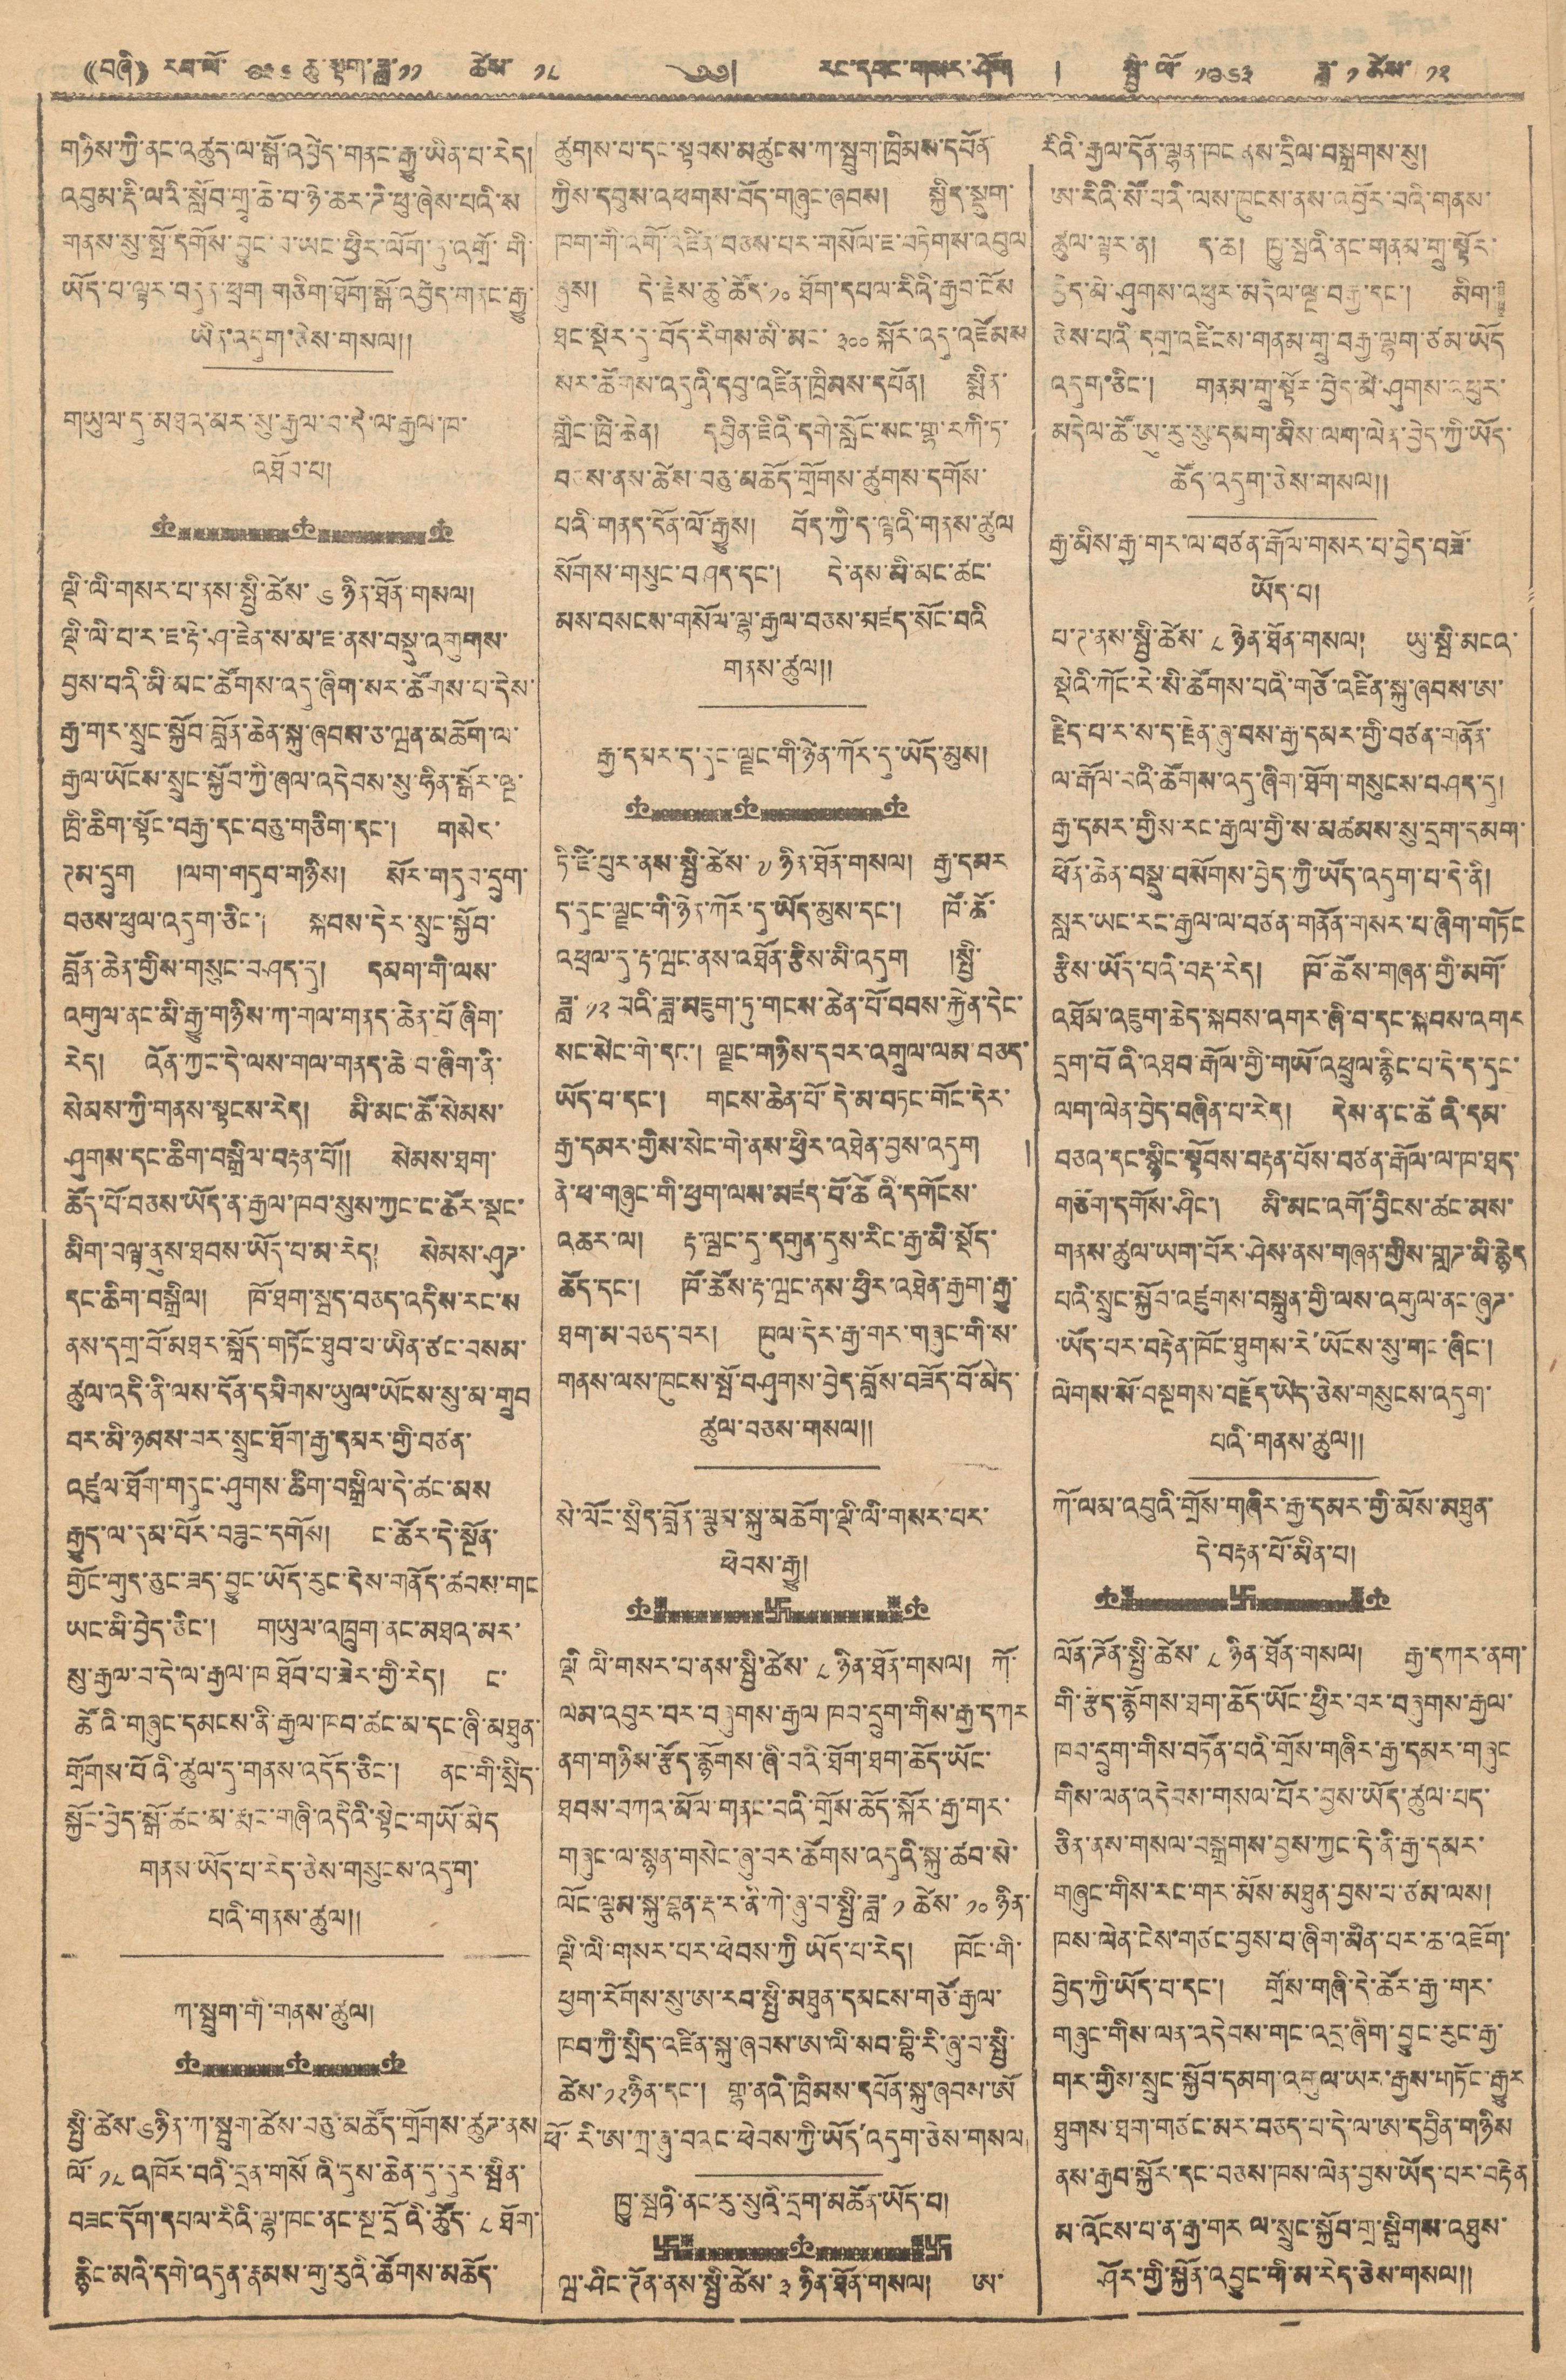(( བཞི ) རབ་ལོ་ ༩༣༦ ཆུ་སྟག་ཟླ་༡༡ ཚེས་ ༡༨ ༄༅། རང་དབང་གསར་ཤོག ། སྤྱི་ལོ་ ༡༩༦༣ ཟླ་ ༡ ཚེས་ ༡༢
གཉིས་ཀྱི་ནང་འཚུད་ལ་སྒོ་འབྱེད་གནང་རྒྱུ་ཡིན་པ་རེད།
འབུམ་རྡི་ལའི་སློབ་གྲྭ་ཆེ་བ་ཉེ་ཆར་ཌི་ཕུ་ཞེས་པའི་ས
གནས་སུ་སྤོ་དགོས་བྱུང་བ་ཡང་ཕྱིར་ལོག་ཏུ་འགྲོ་གི་
ཡོད་པ་ལྟར་བདུད་ཕྲག་གཅིག་ཐོག་སྒོ་འབྱེད་གནང་རྒྱུ་
ཡིན་འདུག་ཅེས་གསལ།།
གཡུལ་དུ་མཐའ་མར་སུ་རྒྱལ་བ་དེ་ལ་རྒྱལ་ཁ་
འཐོབ་པ།
ལྡི་ལི་གསར་པ་ནས་སྤྱི་ཚེས་ ༦ ཉིན་ཐོན་གསལ།
ལྡི་ལི་པ་ར་ཇ་རྟེ་ཤ་ཇེན་ས་མ་ཇ་ནས་བསྡུ་འགུགས་
བྱས་པའི་མི་མང་ཚོགས་འདུ་ཞིག་སར་ཚོགས་པ་དེས་
རྒྱ་གར་སྲུང་སྐྱོབ་བློན་ཆེན་སྐུ་ཞབས་ཅ་ཝན་མཆོག་ལ་
རྒྱལ་ཡོངས་སྲུང་སྐྱོབ་ཀྱི་ཞལ་འདེབས་སུ་ཧིན་སྒོར་ལྔ་
ཁྲི་ཆིག་སྟོང་བརྒྱ་དང་བཅུ་གཅིག་དང་། གསེར་
ཊམ་དྲུག །ལག་གདུབ་གཉིས། སོར་གདུབ་དྲུག་
བཅས་ཕུལ་འདུག་ཅིང་། སྐབས་དེར་སྲུང་སྐྱོབ་
བློན་ཆེན་གྱིས་གསུང་བཤད་དུ། དམག་གི་ལས་
འགུལ་ནང་མི་རྒྱུ་གཉིས་ཀ་གལ་གནད་ཆེན་པོ་ཞིག་
རེད། འོན་ཀྱང་དེ་ལས་གལ་གནད་ཆེ་བ་ཞིག་ནི་
སེམས་ཀྱི་གནས་སྟངས་རེད། མི་མང་ཚོ་སེམས་
ཤུགས་དང་ཆིག་བསྒྲིལ་བརྟན་པོ།། སེམས་ཐག་
ཆོད་པོ་བཅས་ཡོད་ན་རྒྱལ་ཁབ་སུས་ཀྱང་ང་ཚོར་སྡང་
མིག་བལྟ་ནུས་ཐབས་ཡོད་པ་མ་རེད། སེམས་ཤུཊ་
དང་ཆིག་བསྒྲིལ། ཁོ་ཐག་སྦད་བཅད་འདིས་རང་ས
ནས་དགྲ་བོ་མཐར་སློད་གཏོང་ཐུབ་པ་ཡིན་ཙང་བསམ་
ཚུལ་འདི་ནི་ལས་དོན་དམིགས་ཡུལ་ཡོངས་སུ་མ་གྲུབ
བར་མི་ཉམས་བར་སྲུང་ཐོག་རྒྱ་དམར་གྱི་བཙན་
འཛུལ་ཐོག་གདུང་ཤུགས་ཆིག་བསྒྲིལ་དེ་ཚང་མས
རྒྱུད་ལ་དམ་པོར་བཟུང་དགོས། ང་ཚོར་དེ་སྔོན་
གྱོང་གུད་ཅུང་ཟད་བྱུང་ཡོད་རུང་དེས་གནོད་ཚབས་གང
ཡང་མི་བྱེད་ཅིང་། གཡུལ་འཁྲུག་ནང་མཐའ་མར་
སུ་རྒྱལ་བ་དེ་ལ་རྒྱལ་ཁ ཐོབ་པ་ཟེར་གྱི་རེད། ང་
ཚོའི་གཞུང་དམངས་ནི་རྒྱལ་ཁབ་ཚང་མ་དང་ཞི་མཐུན་
གྲོགས་པོའི་ཚུལ་དུ་གནས་འདོད་ཅིང་། ནང་གི་སྲིད་
སྐྱོང་བྱེད་སྒོ་ཚང་མ་རྨང་གཞི་འདིའི་སྟེང་གཡོ་མེད
གནས་ཡོད་པ་རེད་ཅེས་གསུངས་འདུག་
པའི་གནས་ཚུལ།།
ཀ་སྦུག་གི་གནས་ཚུལ།
སྤྱི་ཚེས་༦ཉིན་ཀ་སྦུག་ཚེས་བཅུ་མཚོད་གྲོགས་ཚུཊ་ནས
ལོ་ ༡༨ འཁོར་བའི་དྲན་གསོའི་དུས་ཆེན་དུ་དུར་སྦིན་
བཟང་དོག་དཔལ་རིའི་ལྷ་ཁང་ནང་སྔ་དྲོའི་ཚོད་ ༨ ཐོག་
རྙིང་མའི་དགེ་འདུན་རྣམས་གུ་རུའི་ཚོགས་མཆོད་
ཚུགས་པ་དང་སྟབས་མཚུགས་ཀ་སྦུག་ཁྲིམས་དཔོན་
ཀྱིས་དབུས་འཕགས་བོད་གཞུང་ཞབས། སྐྱིད་སྡུག་
ཁག་གི་འགོ་འཛིན་བཅས་པར་གསོལ་ཇ་བཏེགས་འབུལ
ཞུས། དེ་རྗེས་ཆུ་ཚོད་ ༡༠ ཐོག་དཔལ་རིའི་རྒྱལ་ངོས
ཐང་སྡེར་དུ་བོད་རིགས་མི་མང་ ༣༠༠ སྐོར་འདུ་འཛོམས
སར་ཚོགས་འདུའི་དབུ་འཛིན་ཁྲིམས་དཔོན། སྨིན་
གླིང་ཁྲི་ཆེན། དབྱིན་ཇིའི་དགེ་སློང་སང་གྷ་རཀི་ཏ་
བཅས་ནས་ཚེས་བཅུ་མཆོད་གྲོགས་ཚུགས་དགོས་
པའི་གནད་དོན་ལོ་རྒྱུས། བོད་ཀྱི་ད་ལྟའི་གནས་ཚུལ
སོགས་གསུང་བཤད་དང་། དེ་ནས་མི་མང་ཚང་
མས་བསངས་གསོལ་ལྷ་རྒྱལ་བཅས་མཛད་སོང་བའི
གནས་ཚུལ།།
རྒྱ་དམར་ད་དུང་ལྗང་གི་ཉེན་ཀོར་དུ་ཡོད་མུས།
ཏི་ཛི་པུར་ནས་སྤྱི་ཚེས་ ༧ ཉིན་ཐོན་གསལ། རྒྱ་དམར
ད་དུང་ལྗང་གི་ཉེར་ཀོར་དུ་ཡོད་མུས་དང་། ཁོ་ཚོ་
འཕྲལ་དུ་རྟ་ཝང་ནས་འཐོན་རྩིས་མི་འདུག །སྤྱི་
ཟླ་ ༡༢ པའི་ཟླ་མཇུག་ཏུ་གངས་ཆེན་པོ་བབས་རྐྱེན་དེང་
སང་སེང་གེ་དང་། ལྗང་གཉིས་དབར་འགྲུལ་ལམ་བཅད་
ཡོད་པ་དང་། གངས་ཆེན་པོ་དེ་མ་བཏང་གོང་དེར་
རྒྱ་དམར་གྱིས་སེང་གེ་ནས་ཕྱིར་འཐེན་བྱས་འདུག །
ནེ་ཕ་གཞུང་གི་ཕྱག་ལས་མཛད་པོ་ཚོའི་དགོངས་
འཆར་ལ། རྟ་ཝང་དུ་དགུན་དུས་རིང་རྒྱ་མི་སྡོད་
ཚོད་དང་། ཁོ་ཚོས་རྟ་ཝང་ན་ཕྱིར་འཐེན་རྒྱག་རྒྱུ་
ཐག་མ་བཅད་བར། ཁུལ་དེར་རྒྱ་གར་གཞུང་གི་ས་
གནས་ལས་ཁུངས་སྤོ་བཤུགས་བྱེད་བློས་བཟོད་པོ་མེད་
ཚུལ་བཅས་གསལ།།
སེ་ལོང་སྲིད་བློན་ལྕམ་སྐུ་མཆོག་ལྡི་ལི་གསར་པར་
ཕེབས་རྒྱུ།
ལྡི ལི་གསར་པ་ནས་སྤྱི་ཚེས་ ༨ ཉིན་ཐོན་གསལ། ཀོ་
ལམ་འབུར་བར་བཞུགས་རྒྱལ ཁབ་དྲུག་གིས་རྒྱ་དཀར
ནག་གཉིས་རྩོད་རྙོགས་ཞི་བའི་ཐོག་ཐག་ཆོད་ཡོང་
ཐབས་བཀའ་མོལ་གནང་བའི་གྲོས་ཆོད་སྐོར་རྒྱ་གར་
གཞུང་ལ་སྙན་གསེང་ཞུ་བར་ཚོགས་འདུའི་སྐུ་ཚབ་སེ་
ལོང་ལྕམ་སྐུ་བྷན་རྡ་ར་ནི་ཀེ་ཞུ་བ་སྤྱི་ཟླ་ ༡ ཚེས་ ༡༠ ཉིན་
ལྡི་ལི་གསར་པར་ཕེབས་ཀྱི ཡོད་པ་རེད། ཁོང་གི་
ཕྱག་རོགས་སུ་ཨ་རབ་སྤྱི་མཐུན་དམངས་གཙོ་རྒྱལ་
ཁབ་ཀྱི་སྲིད་འཛིན་སྐུ་ཞབས་ཨ་ལི་སབ་བྷི་རི་ཞུ་བ་སྤྱི་
ཚེས་༡༢ཉིན་དང་། གྷ་ནའི་ཁྲིམས་དཔོན་སྐུ་ཞབས་ཨོ་
ཕོ་རི་ཨ་ཀྲ་ཞུ་བའང་ཕེབས་ཀྱི་ཡོད་འདུག་ཅེས་གསལ།
ཁྱུ་སྦའི་ནང་རུ་སུའི་དྲག་མཚོན་ཡོད་པ།
ཝ་ཤིང་ཊོན་ནས་སྤྱི་ཚེས་ ༣ ཉིན་ཐོན་གསལ། ཨ་
རིའི་རྒྱལ་དོན་ལྷན་ཁང ནས་དྲིལ་བསྒྲགས་སུ།
ཨ་རིའི་སོ་པའི་ལས་ཁུངས་ནས་འབྱོར་བའི་གནས་
ཚུལ་ལྟར་ན། ད་ཆ། ཁྱུ་སྦའི་ནང་གནས་གྲུ་སྟོར་
བྱེད་མི་ཤུགས་འཕུར་མདེལ་ལྔ་བརྒྱ་དང་། མིག་
ཅེས་པའི་དགྲ་འཛིངས་གནས་གྲུ་བརྒྱ་ལྷག་ཙམ་ཡོད
འདུག་ཅིང་། གནམ་གྲུ་སྟོར་བྱེད་མེ་ཤུགས་འཕུར་
མདེལ་ཚོ་ཨུ་རུ་སུ་དམག་མིས་ལག་ལེན་བྱེད་ཡོད་
ཚོད་འདུག་ཅེས་གསལ།།
རྒྱ་མིས་རྒྱ་གར་ལ་བཙན་རྒོལ་གསར་པ་བྱེད་བཟོ་
ཡོད་པ།
པ་ཊ་ནས་སྤྱི་ཚེས་ ༨ ཉིན་ཐོན་གསལ། ཡུ་སྦི་མངའ་
སྡེའི་ཀོང་རེ་སི་ཚོགས་པའི་གཙོ་འཛིན་སྐུ་ཞབས་ཨ་
རྗིད་པ་ར་ས་ད་རྗེན་ཞུ་བས་རྒྱ་དམར་གྱི་བཙན་གནོན་
ལ་རྒོལ་བའི་ཚོགས་འདུ་ཞིག་ཐོག་གསུངས་བཤད་དུ།
རྒྱ་དམར་གྱིས་རང་རྒྱལ་གྱི་ས་མཚམས་སུ་དྲག་དམག་
ཕོན་ཆེན་བསྡུ་བསོགས་བྱེད་ཀྱི་ཡོད་འདུག་པ་དེ་ནི།
སླར་ཡངརང་རྒྱལ་ལ་བཙན་གནོན་གསར་པ་ཞིག་གཏོང
རྩིས་ཡོད་པའི་བརྡ་རེད། ཁོ་ཚོས་གཞན་གྱི་མགོ་
འཐོན་འཇུག་ཆེད་སྐབས་འགར་ཞི་བ་དང་སྐབས་འགར
དྲག་པོའི་འཐབ་རྒོལ་གྱི་གཡོ་འཕྲུག་རྙིང་པ་དེ་ད་དུང་
ལག་ལེན་བྱེད་བཞིན་པ་རེད། དེས་ན་ང་ཚོའི་དམ་
བཅའ་དང་སྙིང་སྟོབས་བརྟན་པོས་བཙན་རྒོལ་ལ་ཁ་ཐད་
གཅོག་དགོས་ཤིང་། མི་མང་འགོ་བྱིངས་ཚང་མས་
གནས་ཚུལ་ཡག་པོར་ཤེས་ནས་གཞན་གྱིས་གླཊ་མི་རྙེད
པའི་སྲུང་སྐྱོབ་འཛུགས་བསྐུན་གྱི་ལས་འགུལ་ནང་ཞུཊ་
་ཡོད་པར་བརྟེན་ཁོང་ཐུགས་རེ་ཡོངས་སུ་གང་ཞིང་།
ལེགས་སོ་བསྔགས་བརྗོད་ཡེད་ཅེས་གསུངས་འདུག་
པའི་གནས་ཚུལ།།
ཀོ་ལམ་འབུའི་གྲོས་གཞིར་རྒྱ་དམར་གྱི་མོས་མཐུན་
དེ་བརྟན་པོ་མིན་པ།
ལོན་ཌོན་སྤྱི་ཚེས་ ༨ ཉིན་ཐོན་གསལ། རྒྱ་དཀར་ནག་
གི་རྩོད་རྙོགས་ཐག་ཆོད་ཡོང་ཕྱིར་བར་བཞུགས་རྒྱལ་
ཁབ་དྲུག་གིས་བཏོན་པའི་གྲོས་གཞིར་རྒྱ་དམར་གཞུང
གིས་ལན་འདེབས་གསལ་པོར་བྱས་ཡོད་ཚུལ་པད་
ཅིན་ནས་གསལ་བསྒྲགས་བྱས་ཀྱང་དེ་ནི་རྒྱ་དམར་
གཞུང་གིས་རང་གར་མོས་མཐུན་བྱས་པ་ཙམ་ལས།
ཁས་ལེན་ངེས་གཙང་བྱས་པ་ཞིག་མིན་པར་ཆ་འཇོག་
བྱེད་ཀྱི་ཡོད་པ་དང་། གྲོས་གཞི་དེ་ཚོར་རྒྱ་གར་
གཞུང་གིས་ལན་འདེབས་གང་འདྲ་ཞིག་བྱུང་རུང་རྒྱ་
གར་གྱིས་སྲུང་སྐྱོབ་དམག་འགུལ་འགུལ་ཡར་རྒྱས་གཏོང་རྒྱུར
ཐུགས་ཐག་གཙང་མར་བཅད་པ་དེ་ལ་ཨ་དབྱིན་གཉིས
ནས་རྒྱབ་སྐྱོར་དང་བཅས་ཁས་ལེན་བྱས་ཡོད་པར་བརྟེན
མ་འོངས་པ་ན་རྒྱ་གར ལ་སྲུང་སྐྱོབ་གྲ་སྒྲིགས་འཐུས་
ཤོར་གྱི་སྐྱོན་འབྱུང་གི་མ་རེད་ཅེས་གསལ།།
